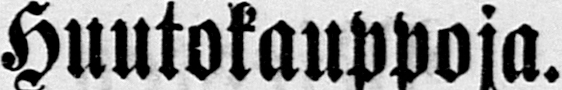Huutokauppoja.
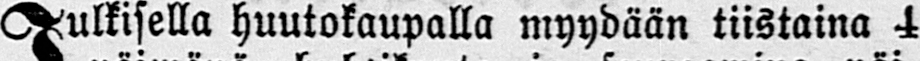Julkisella huutokaupalla myydään tiistaina 4
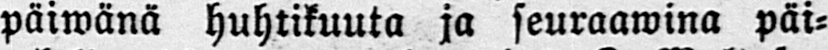päiwänä huhtikuuta ja seuraawina päi-
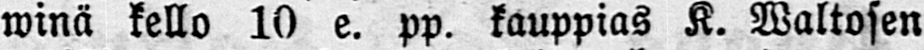winä kello 10 e. pp. kauppias K. Waltosen
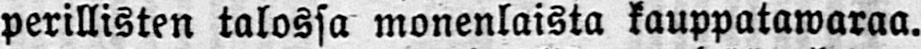perillisten talossa monenlaista kauppatawaraa.
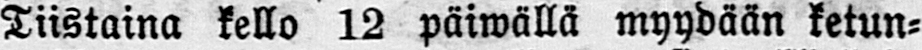Tiistaina kello 12 päiwällä myydään ketun-
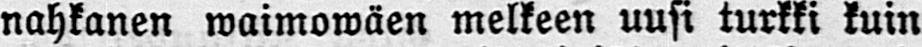nahkanen waimowäen melkeen uusi turkki kuin
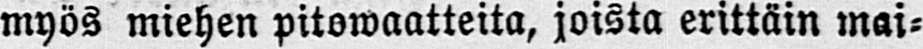myös miehen pitowaatteita, joista erittäin mai-
